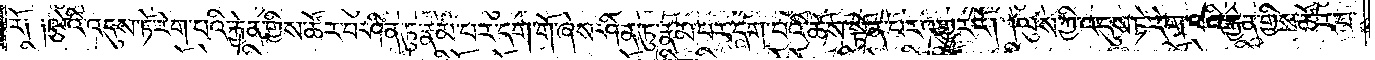རོ༑ ༑ལྕེའི་འདུས་ཏེ་རེག་པའི་རྐྱེན་གྱིས་ཚོར་བ་ཤིན་ཏུ་རྣམ་པར་དག་གོ་ཞེས་ཤིན་ཏུ་རྣམ་པར་དག་པའི་ཆོས་སྟོན་པར་འགྱུར་རོ། །ལུས་ཀྱི་འདུས་ཏེ་རེག་པའི་རྐྱེན་གྱིས་ཚོར་བ་
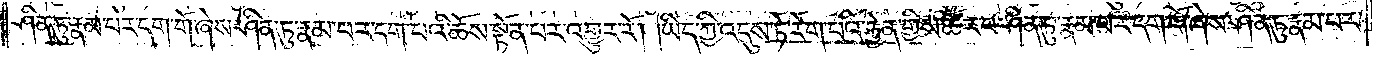ཤིན་ཏུ་རྣམ་པར་དག་གོ་ཞེས་ཤིན་ཏུ་རྣམ་པར་དག་པའི་ཆོས་སྟོན་པར་འགྱུར་རོ། །ཡིད་ཀྱི་འདུས་ཏེ་རེག་པའི་རྐྱེན་གྱིས་ཚོར་བ་ཤིན་ཏུ་རྣམ་པར་དག་གོ་ཞེས་ཤིན་ཏུ་རྣམ་པར་
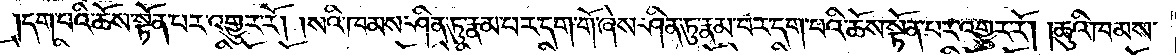དག་པའི་ཆོས་སྟོན་པར་འགྱུར་རོ། །སའི་ཁམས་ཤིན་ཏུ་རྣམ་པར་དག་གོ་ཞེས་ཤིན་ཏུ་རྣམ་པར་དག་པའི་ཆོས་སྟོན་པར་འགྱུར་རོ། །ཆུའི་ཁམས་
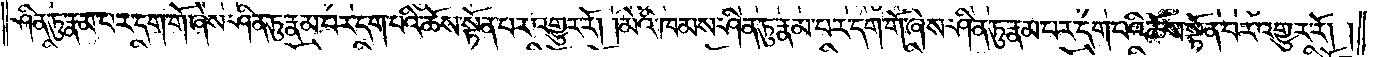ཤིན་ཏུ་རྣམ་པར་དག་གོ་ཞེས་ཤིན་ཏུ་རྣམ་པར་དག་པའི་ཆོས་སྟོན་པར་འགྱུར་རོ། །མེའི་ཁམས་ཤིན་ཏུ་རྣམ་པར་དག་གོ་ཞེས་ཤིན་ཏུ་རྣམ་པར་དག་པའི་ཆོས་སྟོན་པར་འགྱུར་རོ། །
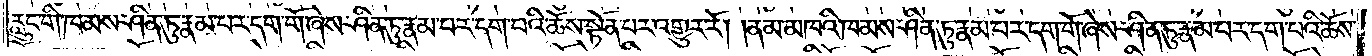རླུང་གི་ཁམས་ཤིན་ཏུ་རྣམ་པར་དག་གོ་ཞེས་ཤིན་ཏུ་རྣམ་པར་དག་པའི་ཆོས་སྟོན་པར་འགྱུར་རོ། །ནམ་མཁའི་ཁམས་ཤིན་ཏུ་རྣམ་པར་དག་གོ་ཞེས་ཤིན་ཏུ་རྣམ་པར་དག་པའི་ཆོས་
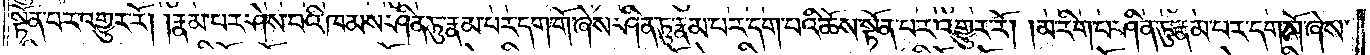སྟོན་པར་འགྱུར་རོ། །རྣམ་པར་ཤེས་པའི་ཁམས་ཤིན་ཏུ་རྣམ་པར་དག་གོ་ཞེས་ཤིན་ཏུ་རྣམ་པར་དག་པའི་ཆོས་སྟོན་པར་འགྱུར་རོ། །མ་རིག་པ་ཤིན་ཏུ་རྣམ་པར་དག་གོ་ཞེས་
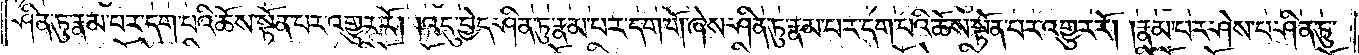ཤིན་ཏུ་རྣམ་པར་དག་པའི་ཆོས་སྟོན་པར་འགྱུར་རོ། །འདུ་བྱེད་ཤིན་ཏུ་རྣམ་པར་དག་གོ་ཞེས་ཤིན་ཏུ་རྣམ་པར་དག་པའི་ཆོས་སྟོན་པར་འགྱུར་རོ། །རྣམ་པར་ཤེས་པ་ཤིན་ཏུ་
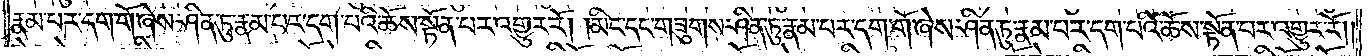རྣམ་པར་དག་གོ་ཞེས་ཤིན་ཏུ་རྣམ་པར་དག་པའི་ཆོས་སྟོན་པར་འགྱུར་རོ། །མིང་དང་གཟུགས་ཤིན་ཏུ་རྣམ་པར་དག་གོ་ཞེས་ཤིན་ཏུ་རྣམ་པར་དག་པའི་ཆོས་སྟོན་པར་འགྱུར་རོ། །
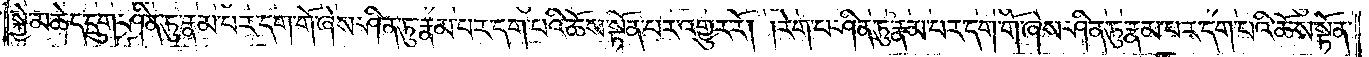སྐྱེ་མཆེད་དྲུག་ཤིན་ཏུ་རྣམ་པར་དག་གོ་ཞེས་ཤིན་ཏུ་རྣམ་པར་དག་པའི་ཆོས་སྟོན་པར་འགྱུར་རོ། །རེག་པ་ཤིན་ཏུ་རྣམ་པར་དག་གོ་ཞེས་ཤིན་ཏུ་རྣམ་པར་དག་པའི་ཆོས་སྟོན་
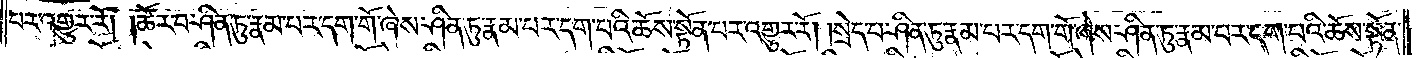པར་འགྱུར་རོ། །ཚོར་བ་ཤིན་ཏུ་རྣམ་པར་དག་གོ་ཞེས་ཤིན་ཏུ་རྣམ་པར་དག་པའི་ཆོས་སྟོན་པར་འགྱུར་རོ། །སྲེད་པ་ཤིན་ཏུ་རྣམ་པར་དག་གོ་ཞེས་ཤིན་ཏུ་རྣམ་པར་དག་པའི་ཆོས་སྟོན་
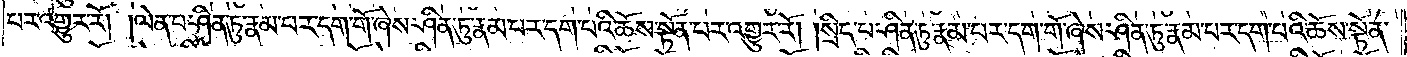པར་འགྱུར་རོ། །ལེན་པ་ཤིན་ཏུ་རྣམ་པར་དག་གོ་ཞེས་ཤིན་ཏུ་རྣམ་པར་དག་པའི་ཆོས་སྟོན་པར་འགྱུར་རོ། །སྲིད་པ་ཤིན་ཏུ་རྣམ་པར་དག་གོ་ཞེས་ཤིན་ཏུ་རྣམ་པར་དག་པའི་ཆོས་སྟོན་
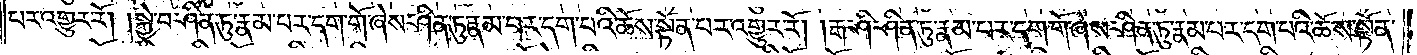པར་འགྱུར་རོ། །སྐྱེ་བ་ཤིན་ཏུ་རྣམ་པར་དག་གོ་ཞེས་ཤིན་ཏུ་རྣམ་པར་དག་པའི་ཆོས་སྟོན་པར་འགྱུར་རོ། །རྒ་ཤི་ཤིན་ཏུ་རྣམ་པར་དག་གོ་ཞེས་ཤིན་ཏུ་རྣམ་པར་དག་པའི་ཆོས་སྟོན་
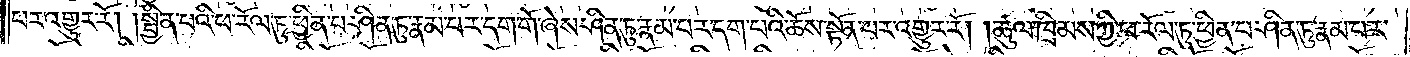པར་འགྱུར་རོ། །སྦྱིན་པའི་ཕ་རོལ་ཏུ་ཕྱིན་པ་ཤིན་ཏུ་རྣམ་པར་དག་གོ་ཞེས་ཤིན་ཏུ་རྣམ་པར་དག་པའི་ཆོས་སྟོན་པར་འགྱུར་རོ། །ཚུལ་ཁྲིམས་ཀྱི་ཕ་རོལ་ཏུ་ཕྱིན་པ་ཤིན་ཏུ་རྣམ་པར་
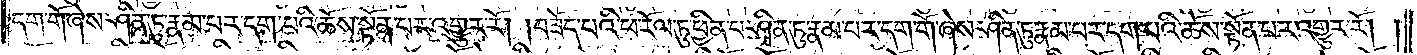དག་གོ་ཞེས་ཤིན་ཏུ་རྣམ་པར་དག་པའི་ཆོས་སྟོན་པར་འགྱུར་རོ། །བཟོད་པའི་ཕ་རོལ་ཏུ་ཕྱིན་པ་ཤིན་ཏུ་རྣམ་པར་དག་གོ་ཞེས་ཤིན་ཏུ་རྣམ་པར་དག་པའི་ཆོས་སྟོན་པར་འགྱུར་རོ། །
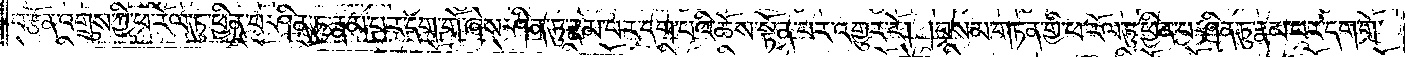བརྩོན་འགྲུས་ཀྱི་ཕ་རོལ་ཏུ་ཕྱིན་པ་ཤིན་ཏུ་རྣམ་པར་དག་གོ་ཞེས་ཤིན་ཏུ་རྣམ་པར་དག་པའི་ཆོས་སྟོན་པར་འགྱུར་རོ། །བསམ་གཏན་གྱི་ཕ་རོལ་ཏུ་ཕྱིན་པ་ཤིན་ཏུ་རྣམ་པར་དག་གོ་
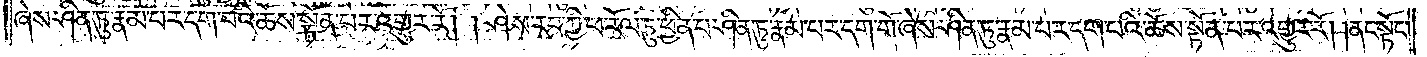ཞེས་ཤིན་ཏུ་རྣམ་པར་དག་པའི་ཆོས་སྟོན་པར་འགྱུར་རོ། །ཤེས་རབ་ཀྱི་ཕ་རོལ་ཏུ་ཕྱིན་པ་ཤིན་ཏུ་རྣམ་པར་དག་གོ་ཞེས་ཤིན་ཏུ་རྣམ་པར་དག་པའི་ཆོས་སྟོན་པར་འགྱུར་རོ། །ནང་སྟོང་
